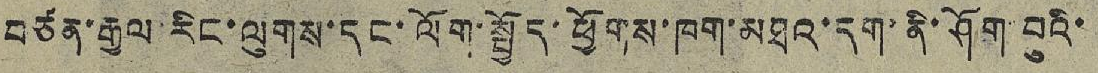བཙན་རྒྱལ་རིང་ལུགས་དང་ལོག་སྤྱོད་ཕྱོགས་ཁག་མཐའ་དག་ནི་ཤོག་བུའི་
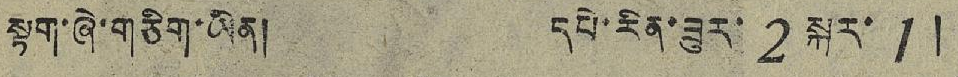སྟག་ཞེ་གཅིག་ཡིན། དཔེ་རིན་ཟུར་ 2 སྐར་ 1།
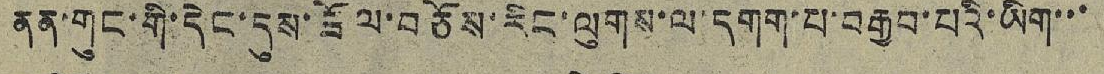ནན་གུང་གི་དེང་དུས་ཟོལ་བཅོས་རིང་ལུགས་ལ་དགག་པ་བརྒྱབ་པའི་ཡིག་་་
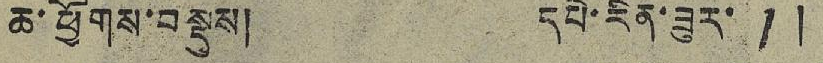ཆ་ཕྱོགས་བསྡུས། དཔེ་རིན་ཟུར་ 1།
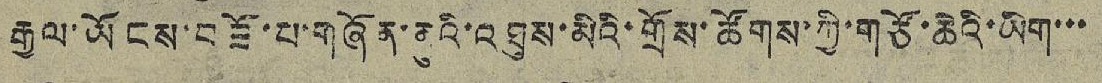རྒྱལ་ཡོངས་བཟོ་པ་གཞོན་ནུའི་འཐུས་མིའི་གྲོས་ཚོགས་ཀྱི་གཙོ་ཆེའི་ཡིག་་་
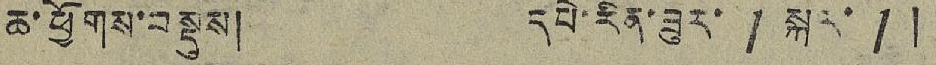ཆ་ཕྱོགས་བསྡུས། དཔེ་རིན་ཟུར་ 1 སྐར་ 1།
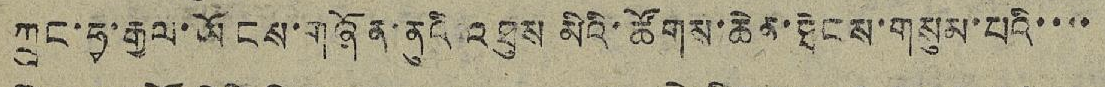ཀྲུང་ཧྭ་རྒྱལ་ཡོངས་གཞོན་ནུའི་འཐུས་མིའི་ཚོགས་ཆེན་ཐེངས་གསུམ་པའི་་་་
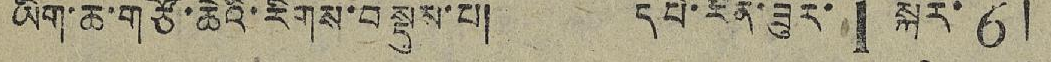ཡིག་ཆ་གཙོ་ཆེའི་རིགས་བསྡུས་པ། དཔེ་རིན་ཟུར་ 1 སྐར་ 6།
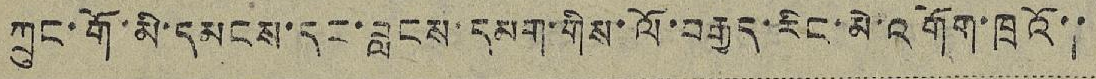ཀྲུང་གོ་མི་དམངས་དང་བླངས་དམག་གིས་ལོ་བརྒྱད་རིང་མེ་འགོག་ཁྲའོ་་
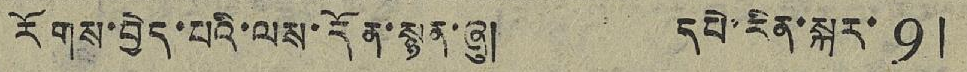རོགས་བྱེད་པའི་ལས་དོན་སྙན་ཞུ། དཔེ་རིན་སྐར་ 9།
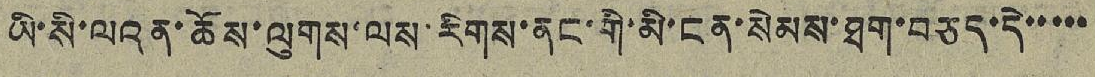ཡི་སི་ལའན་ཆོས་ལུགས་ལས་རིགས་ནང་གི་མི་ངན་སེམས་ཐག་བཅད་དེ་་་་་
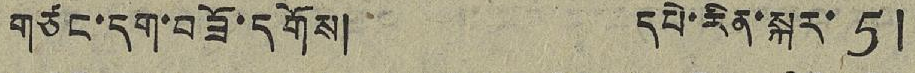གཙང་དག་བཟོ་དགོས། དཔེ་རིན་སྐར་ 5།
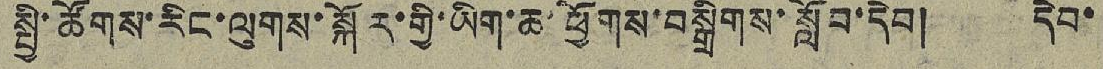སྤྱི་ཚོགས་རིང་ལུགས་སྐོར་གྱི་ཡིག་ཆ་ཕྱོགས་བསྒྲིགས་སློབ་དེབ། དེབ་
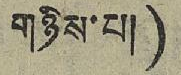གཉིས་པ།)
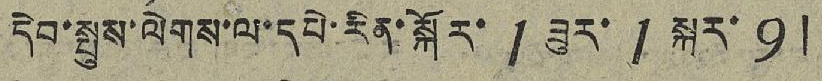དེབ་སྤུས་ལེགས་ལ་དཔེ་རིན་སྐོར་ 1 ཟུར་ 1 སྐར་ 9།
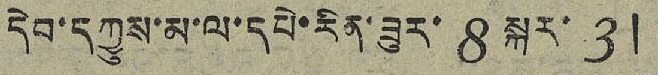དེབ་དཀྱུས་མ་ལ་དཔེ་རིན་ཟུར་ 8 སྐར་ 3།
